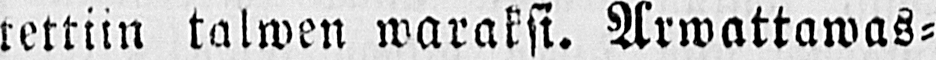tettiin talwen waraksi. Arwattawas-
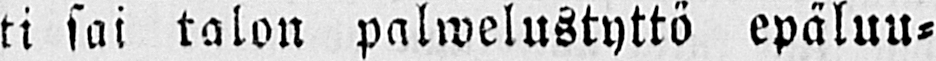ti sai talon palwelustyttö epäluu-
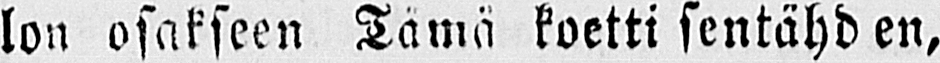lon osakseen Tämä koetti sentähden,
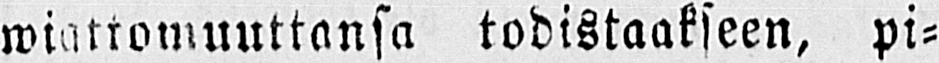wiattomuuttansa todistaakseen, pi-
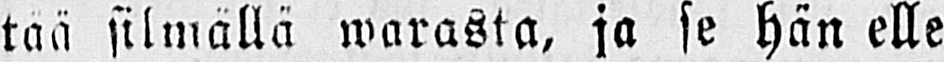tää silmällä warasta, ja se hänelle
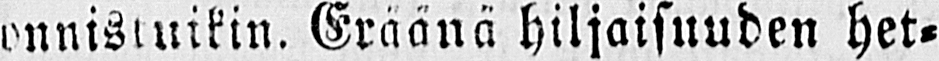onnistuikin. Eräänä hiljaisuuden het-
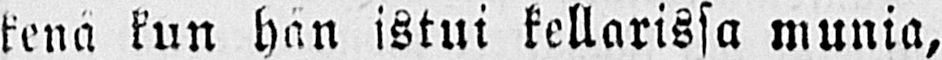kenä kun hän istui kellarissa munia,
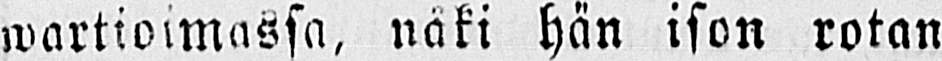wartioimassa, näki hän ison rotan
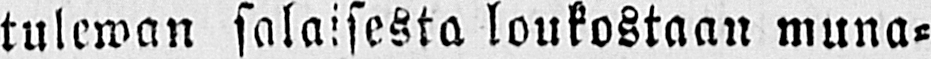tulewan salaisesta loukostaan muna-
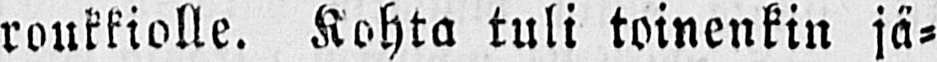roukkiolle. Kohta tuli toinenkin jä-
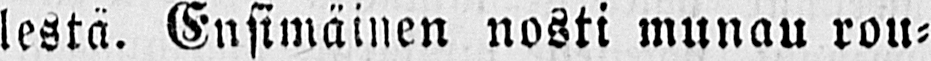lestä. Ensimäinen nosti munan rou-
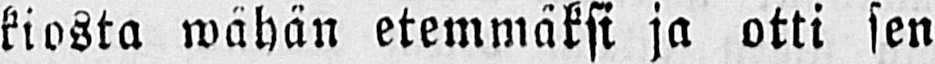kiosta wähän etemmäksi ja otti sen
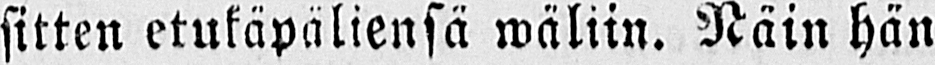sitten etukäpäliensä wäliin. Näin hän
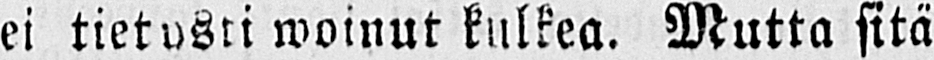ei tietysti woinut kulkea. Mutta sitä
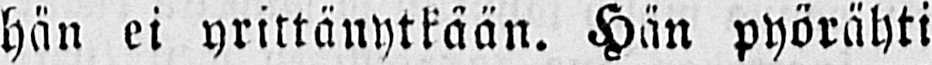hän ei yrittänytkään. Hän pyörähti
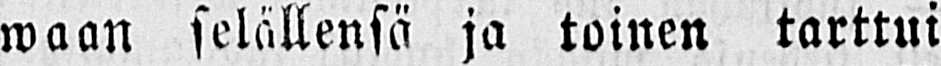waan selällensä ja toinen tarttui
